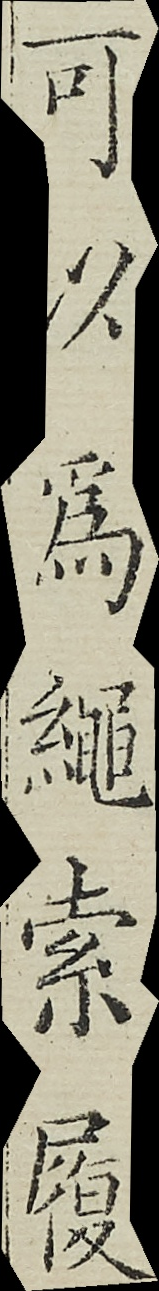可以爲繩索履
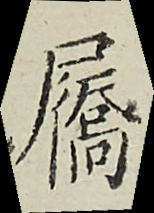屩
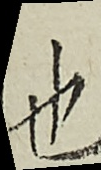也
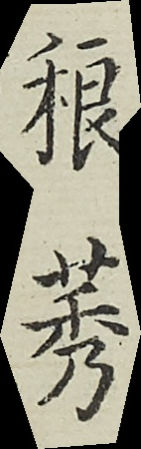稂莠
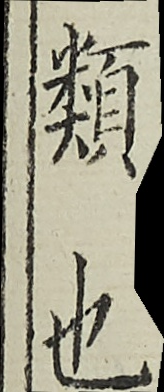類也
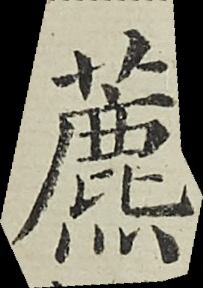藨
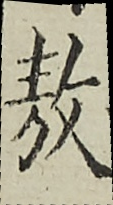敖
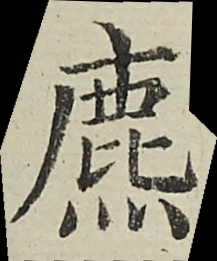麃
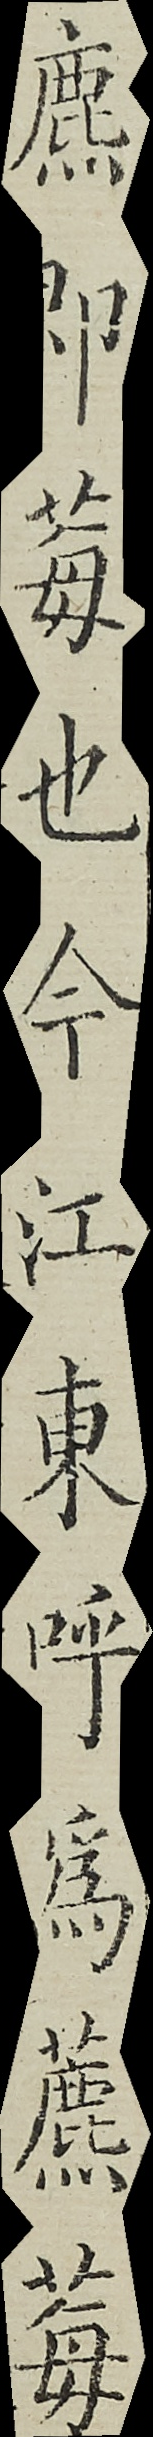麃即莓也今江東呼爲藨莓
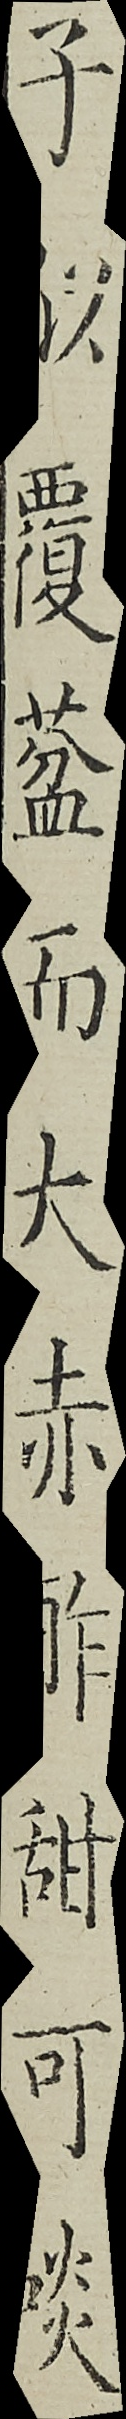子似覆葐而大赤酢甜可啖
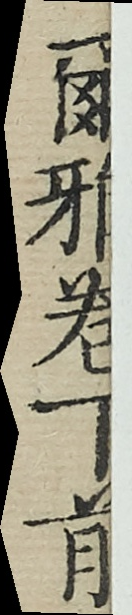爾雅卷下前
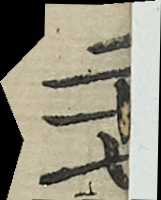二十七
